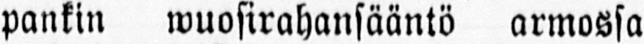pankin wuosirahansääntö armossa
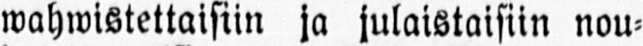wahwistettaisiin ja julaistaisiin nou-
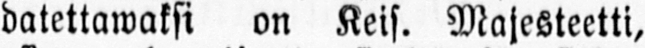datettawaksi on Keis. Majesteetti,
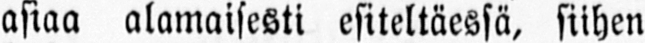asiaa alamaisesti esiteltäessä, siihen
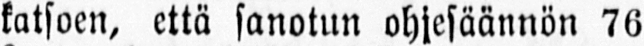katsoen, että sanotun ohjesäännön 76
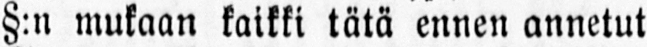§:n mukaan kaikki tätä ennen annetut
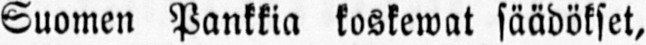Suomen Pankkia koskewat säädökset,
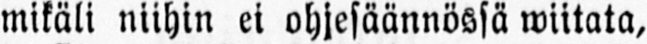mikäli niihin ei ohjesäännössä wiitata,
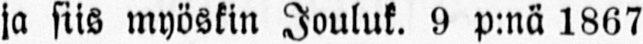ja siis myöskin Jouluk. 9 p:nä 1867
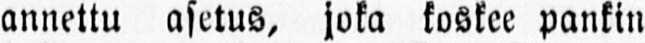annettu asetus, joka koskee pankin
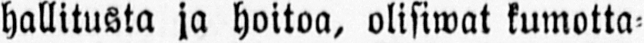hallitusta ja hoitoa, olisiwat kumotta-
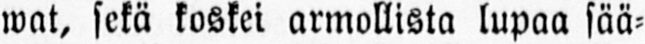wat, sekä koskei armollista lupaa sää-
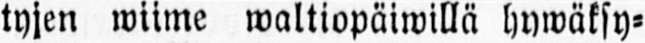tyjen wiime waltiopäiwillä hywäksy-
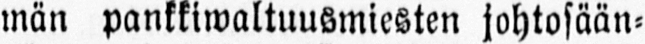män pankkiwaltuusmiesten johtosään-
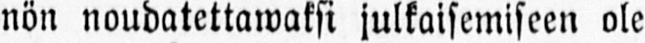nön noudatettawaksi julkaisemiseen ole
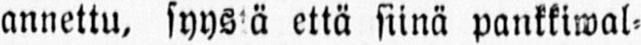annettu, syystä että siinä pankkiwal-
